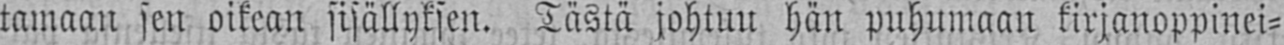tamaan sen oikean sisällyksen. Tästä johtuu hän puhumaan kirjanoppinei-
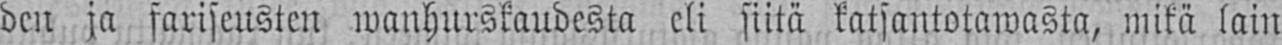den ja fariseusten wanhurskaudesta ali siitä katsantotawasta, mikä lain
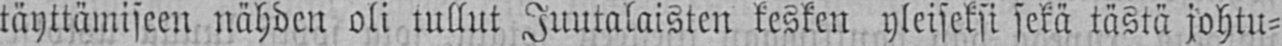täyttämiseen nähden oli tullut Juutalaisten kesken yleiseksi sekä tästä johtu-
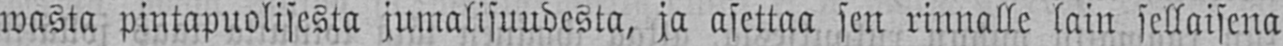wasta pintapuolisesta jumalisuudesta, ja asettaa sen rinnalle lain sellaisena
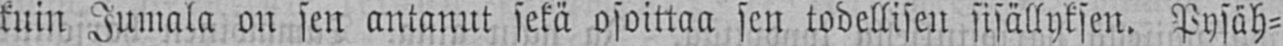kuin Jumala on sen antanut sekä osoittaa sen todellisen sisällyksen. Pysäh-
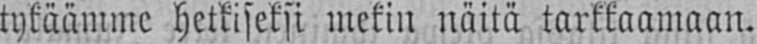tykäämme hetkiseksi mekin näitä tarkkaamaan.
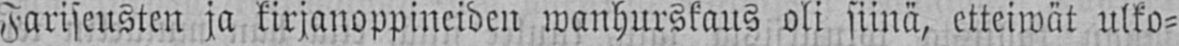Fariseusten ja kirjanoppineiden wanhurskaus oli siinä, etteiwät ulko-
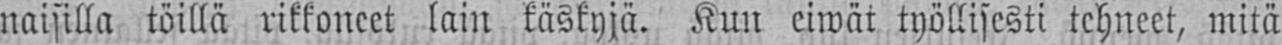naisilla töillä rikkoneet lain käskyjä. Kun eiwät työllisesti tehneet, mitä
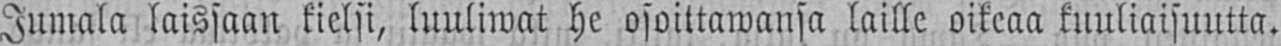Jumala laissaan kielsi, luuliwat he osittawansa laille oikeaa kuuliaisuutta.
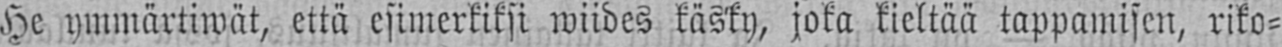He ymmärtiwät, että esimerkiksi wiides käsky, joka kieltää tappamisen riko-
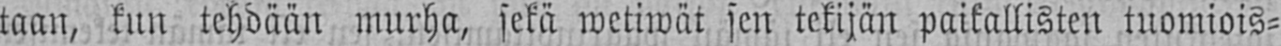taan, kun tehdään murha, sekä wetiwät sen tekijän paikallisten tuomiois-
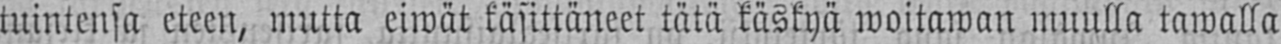tuintensa eteen, mutta eiwät käsittäneet tätä käskyä woitawan muulla tawalla
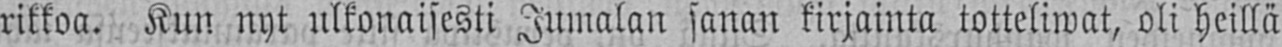rikkoa. Kun nyt ulkonaisesti Jumalan sanan kirjainta totteliwat, oli heillä
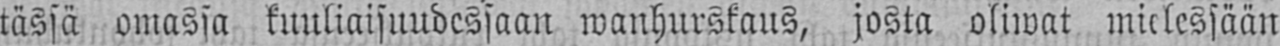tässä omassa kuuliaisuudessaan wanhurskaus, josta oliwat mielessään
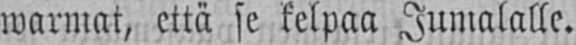warmat, että se kelpaa Jumalalle.
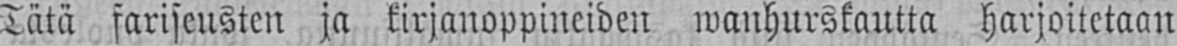Tätä fariseusten ja kirjanoppineiden wanhurskautta harjoitetaan
